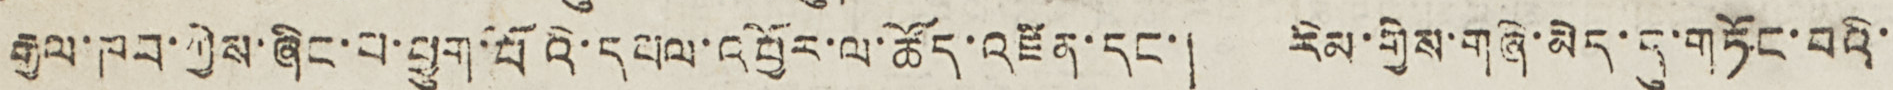རྒྱལ་ཁབ་ཀྱིས་ཞིང་པ་བྱུག་པིའི་དཔལ་འབྱོར་ལ་ཚོད་འཛིན་དང་། རིམ་གྱིས་གཞི་མེད་དུ་གཏོང་བའི་་
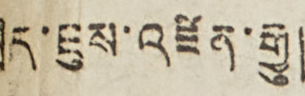སྲིད་ཇུས་འཛིན་རྒྱུ།
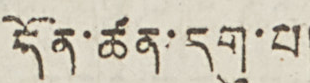དོན་ཚན་དགུ་པ།
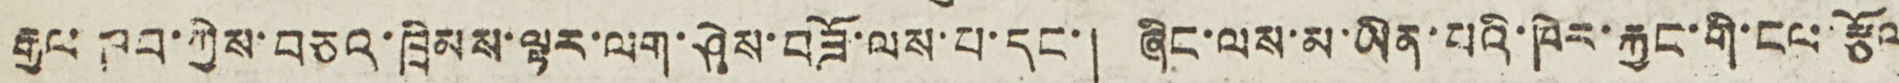རྒྱལ ཁབ་ཀྱིས་བཅའ་ཁྲིམས་ལྟར་ལག་ཤེས་བཟོ་ལས་པ་དང་། ཞིང་ལས་མ་ཡིན་པའི་ཁེར་རྐྱང་གི་ངལ་རྩོལ
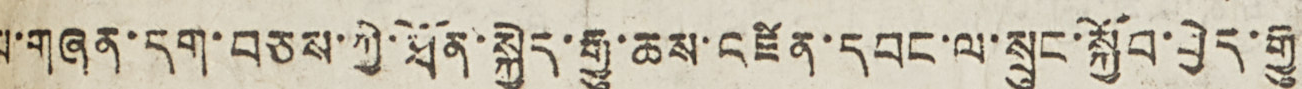པ་གཞན་དག་བཅས་ཀྱི་ཐོན་སྐྱེད་རྒྱུ་ཆས་འཛིན་དབང་ལ་སྲུང་སྐྱོབ་བྱེད་རྒྱུ།
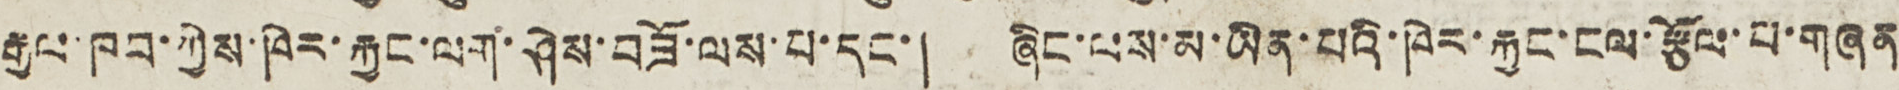རྒྱལ་ཁབ་ཀྱིས་ཁེར་རྐྱང་ལག་ཤེས་བཟོ་ལས་པ་དང་། ཞིང་ལས་མ་ཡིན་པའི་ཁེར་རྐྱང་ངལ་རྩོལ་བ་གཞན
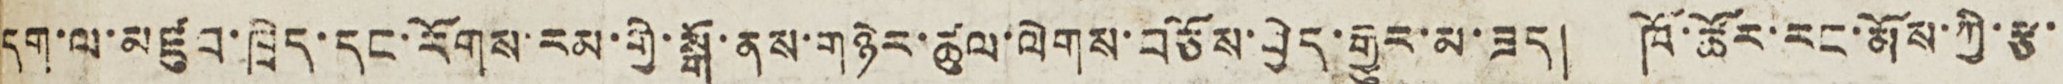དག་ལ་མཛུབ་ཁྲིད་དང་རོགས་རམ་གྱི་སྒོ་ནས་གཉེར་ཚུལ་ལེགས་བཅོས་རྒྱུར་མ་ཟད། ཁོ་ཚོར་རང་མོས་ཀྱི་རྩ་
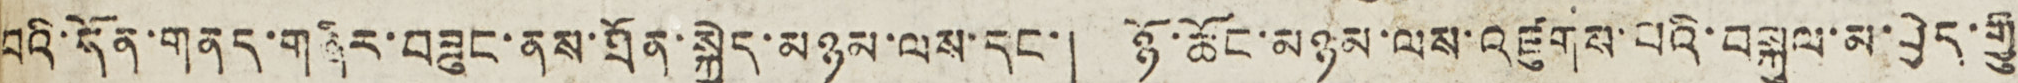བའི་དོན་གནད་གཞིར་བཟུང་ནས་ཐོན་སྐྱེད་མཉམ་ལས་དང་། ཉོ་ཚོང་མཉམ་ལས་འཛུགས་པའི་བསྐུལ་མ་བྱེད་རྒྱུ།
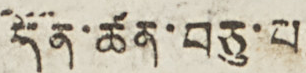དོན་ཚན་བཅུ་པ།
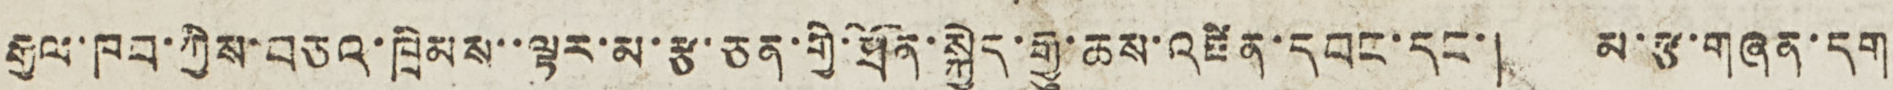རྒྱལ་ཁབ་ཀྱིས་བཅའ་ཁྲིམས་ལྟར་མ་རྩ་ཅན་གྱི་ཐོན་སྐྱེད་རྒྱུ་ཆས་འཛིན་དབང་དང་། མ་རྩ་གཞན་དག་
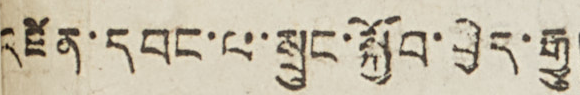འཛིན་དབང་ལ་སྲུང་སྐྱོབ་བྱེད་རྒྱུ།
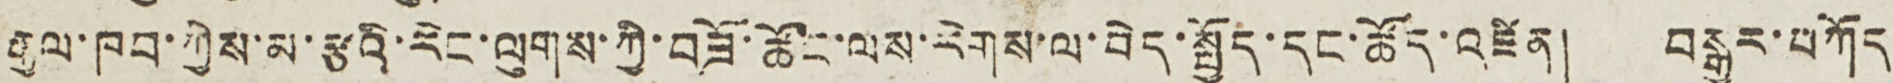རྒྱལ་ཁབ་ཀྱིས་མ་རྩའི་རིང་ལུགས་ཀྱི་བཟོ་ཚོང་ལས་རིགས་ལ་བེད་སྤྱོད་དང་ཚོད་འཛིན། བསྒྱུར་བཀོད་
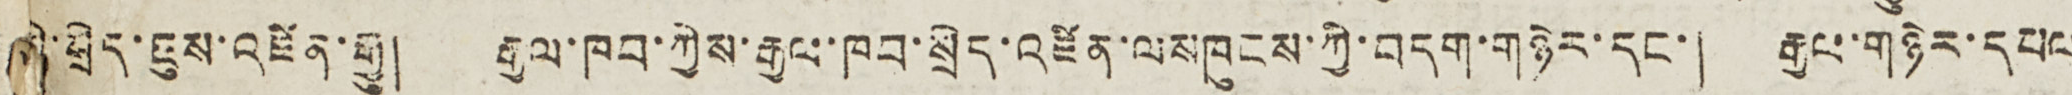ཀྱི་སྲིད་ཇུས་འཛིན་རྒྱུ། རྒྱལ་ཁབ་ཀྱིས་རྒྱལ་ཁབ་སྲིད་འཛིན་ལས ཁུངས་བདག་གཉེར་དང་། རྒྱལ་གཉེར་དཔལ་
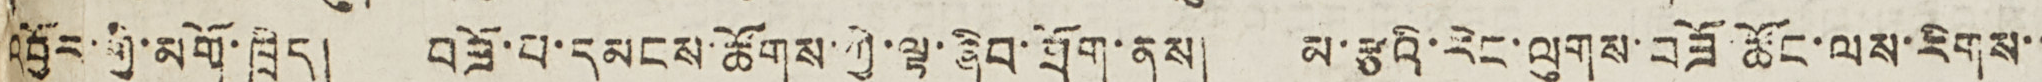འབྱོར་གྱི་མགོ་ཁྲིད། བཟོ་པ་དམངས་ཚོགས་ཀྱི་ལྟ་ཞིབ་ཐོག་ནས། མ་རྩའི་རིང་ལུགས་བཟོ་ཚོང་ལས་རིགས་་
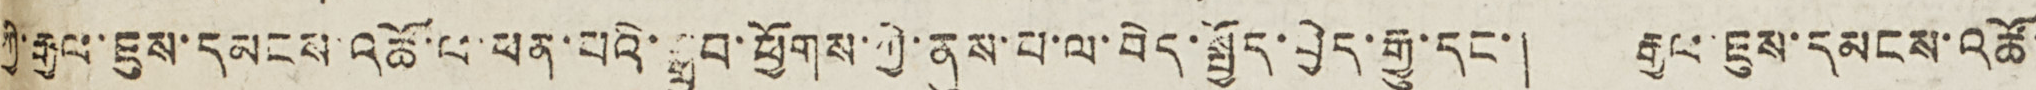ཀྱི་རྒྱལ་ཇུས་དམངས་འཚོ་ལ་ཕན་པའི་སྒྲུབ་ཕྱོགས་ཀྱི་ནུས་པ་ལ་བེད་སྤྱོད་བྱེད་རྒྱུ་དང་། རྒྱལ་ཇུས་དམངས་འཚོ་
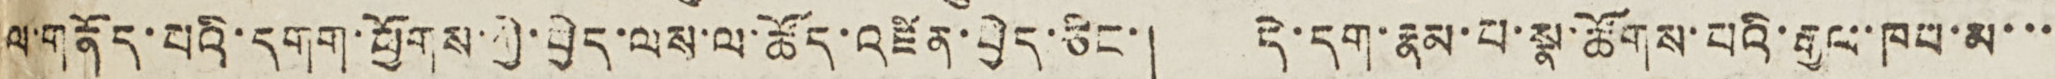ལ་གནོད་པའི་དགག་ཕྱོགས་ཀྱི་བྱེད་ལས་ལ་ཚོད་འཛིན་བྱེད་ཅིང་། དེ་དག་རྣམ་པ་སྣ་ཚོགས་པའི་རྒྱལ་ཁབ་མ་་་
